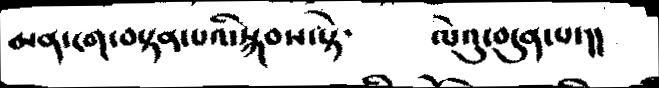མན་ངག་བསྟན་པའི་སྐབས་སྟེ་     ལེའུ་བདུན་པ་།།
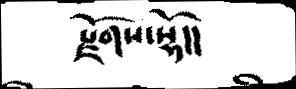རྫོགས་སྷོ།།
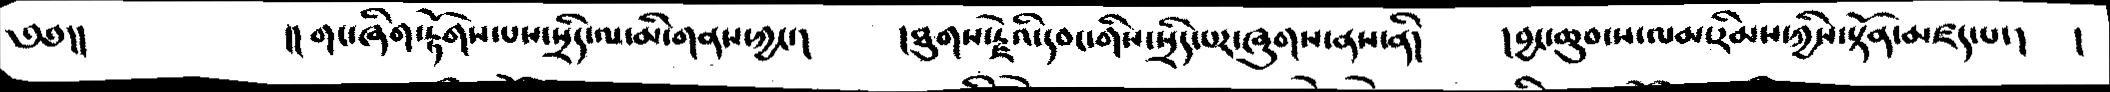༄༅།།     །།གང་ཞིག་རྟོགས་པས་སྲིད་ལ་མི་གནས་ཀྱང་།   །ཐུགས་རྗེའི་དབང་གིས་སྲིད་པར་ཞུགས་ནས་ནི།   །བྱང་ཆུབ་ས་ལམ་རིམས་ཀྱིས་སྟོན་མཛད་པ་།  །
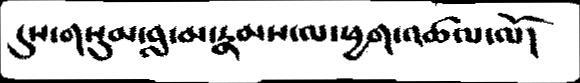དུས་གསུམ་བླ་མ་རྣམས་ལ་ཕྱག་འཚལ་ལོ།
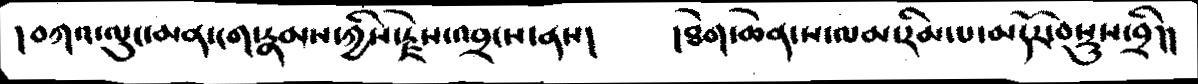།བཀའ་ལུང་མན་ངག་རྣམས་ཀྱིས་རྗེས་འབྲངས་ནས།  །ཐེག་ཆེན་ས་ལམ་རིམ་པ་མདོར་བསྡུས་བྲི།།
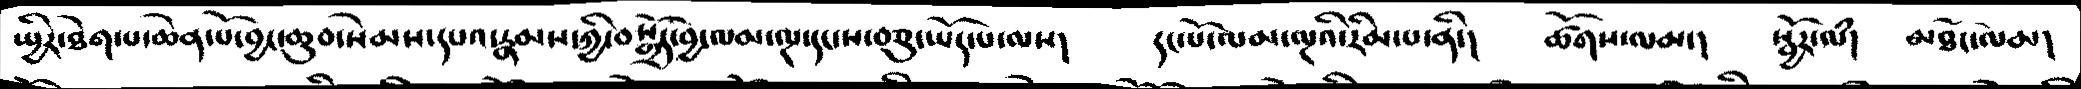སྤྱིར་ཐེགས་པ་ཆེན་པོ་བྱང་ཆུབ་སེམས་དཔའ་རྣམས་ཀྱི་བསྒྲོད་བྱ་ལམ་ལྔ་དང་ས་བཅུ་ཡོད་པ་ལས།  དང་པོ་ལམ་ལྔའི་རིམ་པ་ནི་།  ཚོགས་ལམ་།   སྦྱོར་ལཾ།  མཐོང་ལམ།
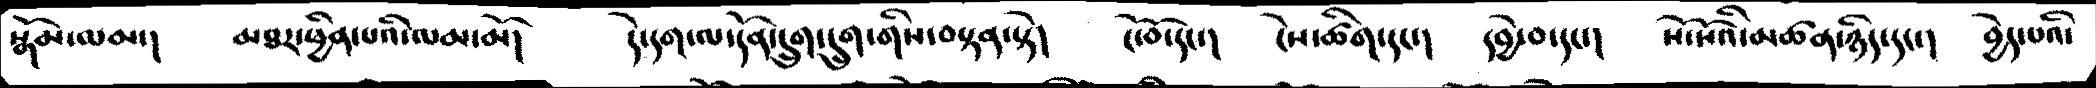སྒོམ་ལམ་།   མཐར་ཕྱིན་པའི་ལམ་མོ།   དེ་དག་ལ་དོན་དྲུག་དྲུག་གིས་བསྟན་སྟེ།   ངོ་བོ་དང་།   ངེས་ཚིག་དང་།   དབྱེ་བ་དང་།   སོ་སོའི་མཚན་ཉིད་དང་།   བྱེད་པའི་
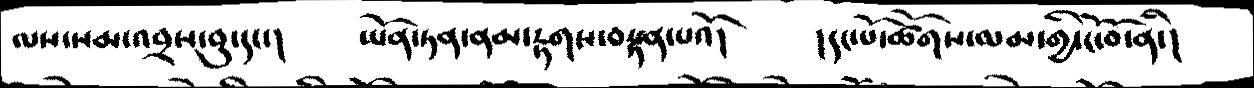ལས་སམ་འབྲས་བུ་དང་།   ཡོན་ཏན་ནམ་རྟགས་བསྟན་པའོ།  །དང་པོ་ཚོགས་ལམ་གྱི་ངོ་བོ་ནི་།
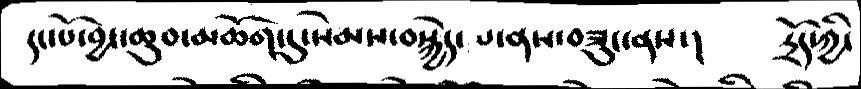དང་པོ་བྱང་ཆུབ་མཆོག་དུ་སེམས་བསྐྱེད་པ་ནས་བཟུང་ནས་།  དྲོད་ཀྱི་
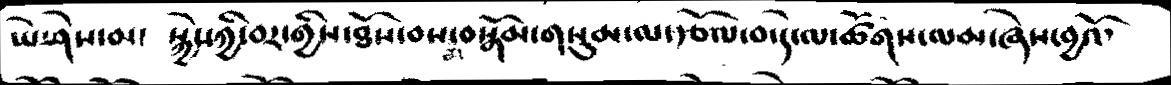ཡེ་ཤེས་མ་  སྐྱེསཀྱི་བར་གྱིས་ཐོས་བསམ་བསྒོམ་གསུམ་ལ་རྩོལ་བ་དེ་ལ་ཚོགས་ལམ་ཞེས་བྱའོ་
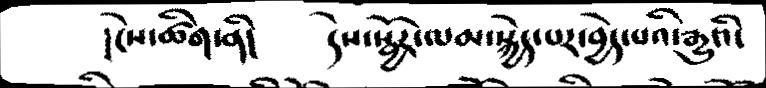།ངེས་ཚིག་ནི།   དེས་སྦྱོར་ལམ་སྐྱེད་པར་བྱེད་པའི་རྒྱུའི་
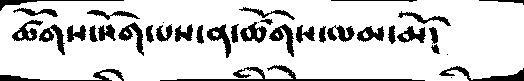ཚོགས་སོག་པས་ན་ཚོགས་ལམ་མོ།
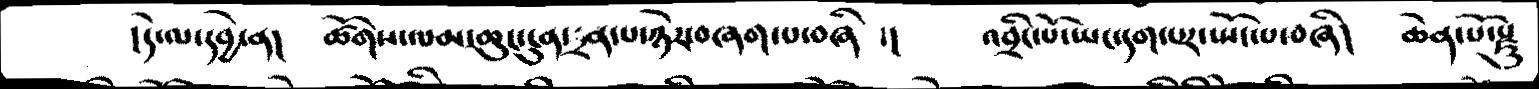།དེ་ལ་དབྱེ་ན།  ཚོགས་ལམ་ཆུང་ངུན་དྲན་པ་ཉེར་བཞག་པ་བཞི།།  འབྲིང་པོ་ཡང་དག་པར་སྤོང་པ་བཞི།  ཆེན་པ་རྫུ
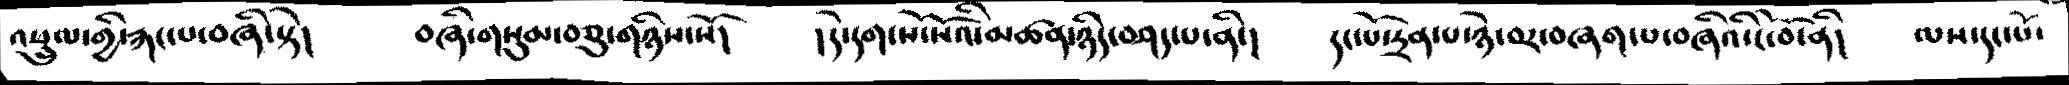འཕྲུལ་གྱི་རྐང་པ་བཞི་སྟེ།   བཞི་གསུམ་བཅུ་གཉིས་སོ།   །དེ་དག་སོ་སོའི་མཚན་ཉིད་བཤད་པ་ནི་།   དང་པོ་དྲན་པ་ཉེ་བར་བཞག་པ་བཞིའི་ངོ་བོ་ནི།  ལས་དང་པོ་
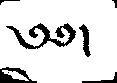༄༅།
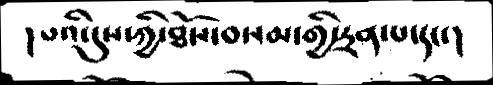།པའི་དུས་ཀྱི་ཐོས་བསམ་གྱི་དྲན་པ་དང་།
